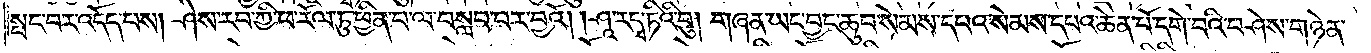སྤང་བར་འདོད་པས། ཤེས་རབ་ཀྱི་ཕ་རོལ་ཏུ་ཕྱིན་པ་ལ་བསླབ་པར་བྱའོ། །ཤཱ་ར་དྭ་ཏིའི་བུ། གཞན་ཡང་བྱང་ཆུབ་སེམས་དཔའ་སེམས་དཔའ་ཆེན་པོ་དགེ་བའི་བཤེས་གཉེན་
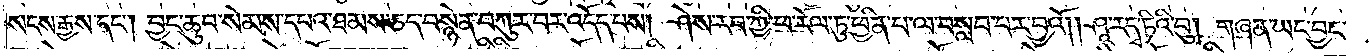སངས་རྒྱས་དང༌། བྱང་ཆུབ་སེམས་དཔའ་ཐམས་ཅད་བསྙེན་བཀུར་བར་འདོད་པས། ཤེས་རབ་ཀྱི་ཕ་རོལ་ཏུ་ཕྱིན་པ་ལ་བསླབ་པར་བྱའོ། །ཤཱ་ར་དྭ་ཏིའི་བུ། གཞན་ཡང་བྱང་
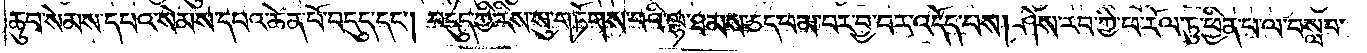ཆུབ་སེམས་དཔའ་སེམས་དཔའ་ཆེན་པོ་བདུད་དང༌། བདུད་ཀྱི་རིས་སུ་གཏོགས་པའི་ལྷ་ཐམས་ཅད་ཕམ་པར་བྱ་བར་འདོད་པས། ཤེས་རབ་ཀྱི་ཕ་རོལ་ཏུ་ཕྱིན་པ་ལ་བསླབ་
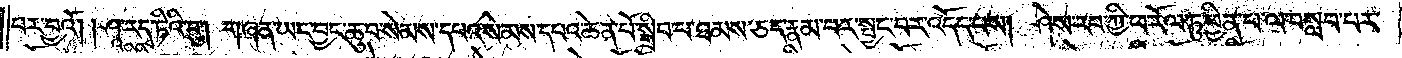པར་བྱའོ། །ཤཱ་ར་དྭ་ཏིའི་བུ། གཞན་ཡང་བྱང་ཆུབ་སེམས་དཔའ་སེམས་དཔའ་ཆེན་པོ་སྒྲིབ་པ་ཐམས་ཅད་རྣམ་པར་སྤྱང་བར་འདོད་པས། ཤེས་རབ་ཀྱི་ཕ་རོལ་ཏུ་ཕྱིན་པ་ལ་བསླབ་པར་
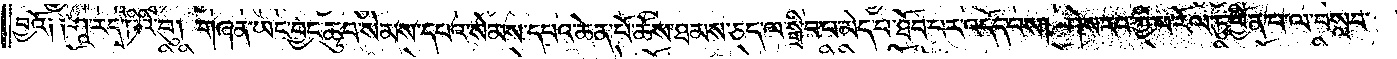བྱའོ༑ ༑ཤཱ་ར་དྭ་ཏིའི་བུ། གཞན་ཡང་བྱང་ཆུབ་སེམས་དཔའ་སེམས་དཔའ་ཆེན་པོ་ཆོས་ཐམས་ཅད་ལ་སྒྲིབ་པ་མེད་པ་ཐོབ་པར་འདོད་པས། ཤེས་རབ་ཀྱི་ཕ་རོལ་ཏུ་ཕྱིན་པ་ལ་བསླབ་
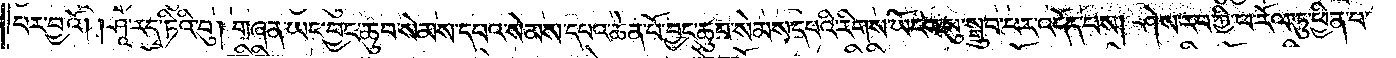པར་བྱའོ། །ཤཱ་ར་དྭ་ཏིའི་བུ། གཞན་ཡང་བྱང་ཆུབ་སེམས་དཔའ་སེམས་དཔའ་ཆེན་པོ་བྱང་ཆུབ་སེམས་དཔའི་རིགས་ཡོངས་སུ་སྒྲུབ་པར་འདོད་པས། ཤེས་རབ་ཀྱི་ཕ་རོལ་ཏུ་ཕྱིན་པ་
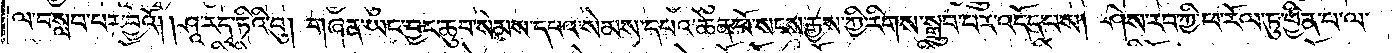ལ་བསླབ་པར་བྱའོ། །ཤཱ་ར་དྭ་ཏིའི་བུ། གཞན་ཡང་བྱང་ཆུབ་སེམས་དཔའ་སེམས་དཔའ་ཆེན་པོ་སངས་རྒྱས་ཀྱི་རིགས་སྒྲུབ་པར་འདོད་པས། ཤེས་རབ་ཀྱི་ཕ་རོལ་ཏུ་ཕྱིན་པ་ལ་
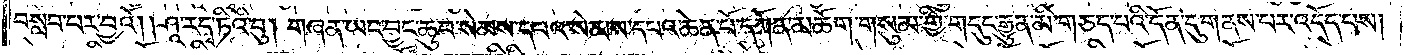བསླབ་པར་བྱའོ། །ཤཱ་ར་དྭ་ཏིའི་བུ། གཞན་ཡང་བྱང་ཆུབ་སེམས་དཔའ་སེམས་དཔའ་ཆེན་པོ་དཀོན་མཆོག་གསུམ་གྱི་གདུང་རྒྱུན་མི་གཅད་པའི་དོན་དུ་གནས་པར་འདོད་པས།
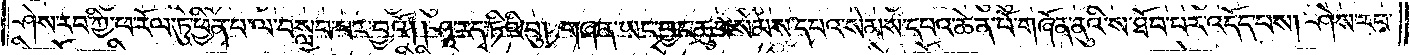ཤེས་རབ་ཀྱི་ཕ་རོལ་ཏུ་ཕྱིན་པ་ལ་བསླབ་པར་བྱའོ། །ཤཱ་ར་དྭ་ཏིའི་བུ། གཞན་ཡང་བྱང་ཆུབ་སེམས་དཔའ་སེམས་དཔའ་ཆེན་པོ་གཞོན་ནུའི་ས་ཐོབ་པར་འདོད་པས། ཤེས་རབ་
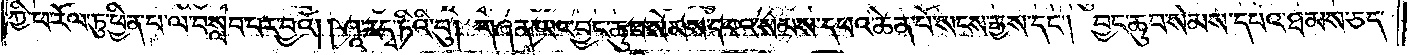ཀྱི་ཕ་རོལ་ཏུ་ཕྱིན་པ་ལ་བསླབ་པར་བྱའོ། །ཤཱ་ར་དྭ་ཏིའི་བུ། གཞན་ཡང་བྱང་ཆུབ་སེམས་དཔའ་སེམས་དཔའ་ཆེན་པོ་སངས་རྒྱས་དང༌། བྱང་ཆུབ་སེམས་དཔའ་ཐམས་ཅད་
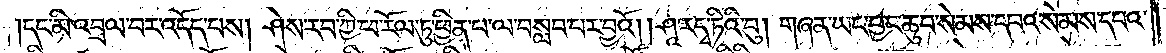དང་མི་འབྲལ་བར་འདོད་པས། ཤེས་རབ་ཀྱི་ཕ་རོལ་ཏུ་ཕྱིན་པ་ལ་བསླབ་པར་བྱའོ། །ཤཱ་ར་དྭ་ཏིའི་བུ། གཞན་ཡང་བྱང་ཆུབ་སེམས་དཔའ་སེམས་དཔའ་
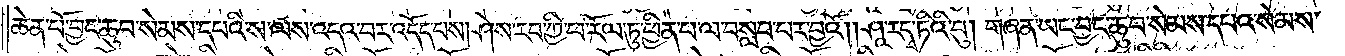ཆེན་པོ་བྱང་ཆུབ་སེམས་དཔའི་ས་ལས་འདའ་བར་འདོད་པས། ཤེས་རབ་ཀྱི་ཕ་རོལ་ཏུ་ཕྱིན་པ་ལ་བསླབ་པར་བྱའོ། །ཤཱ་ར་དྭ་ཏིའི་བུ། གཞན་ཡང་བྱང་ཆུབ་སེམས་དཔའ་སེམས་
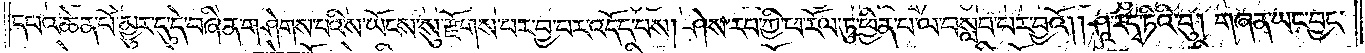དཔའ་ཆེན་པོ་མྱུར་དུ་དེ་བཞིན་གཤེགས་པའི་ས་ཡོངས་སུ་རྫོགས་པར་བྱ་བར་འདོད་པས། ཤེས་རབ་ཀྱི་ཕ་རོལ་ཏུ་ཕྱིན་པ་ལ་བསླབ་པར་བྱའོ། །ཤཱ་ར་དྭ་ཏིའི་བུ། གཞན་ཡང་བྱང་
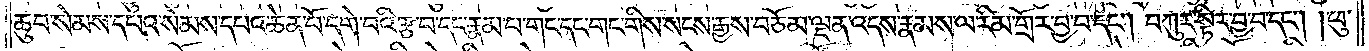ཆུབ་སེམས་དཔའ་སེམས་དཔའ་ཆེན་པོ་དགེ་བའི་རྩ་བ་དང་རྣམ་པ་གང་དང་གང་གིས་སངས་རྒྱས་བཅོམ་ལྡན་འདས་རྣམས་ལ་རིམ་གྲོར་བྱ་བ་དང༌། བཀུར་སྟིར་བྱ་བ་དང༌། །ཕུ་
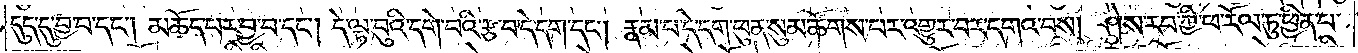དུད་དུ་བྱ་བ་དང༌། མཆོད་པར་བྱ་བ་དང༌། དེ་ལྟ་བུའི་དགེ་བའི་རྩ་བ་དེ་དག་དང༌། རྣམ་པ་དེ་དག་ཕུན་སུམ་ཚོགས་པར་འགྱུར་བར་དགའ་བས། ཤེས་རབ་ཀྱི་ཕ་རོལ་ཏུ་ཕྱིན་པ་
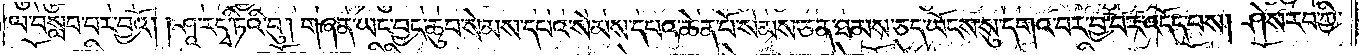ལ་བསླབ་པར་བྱའོ། །ཤཱ་ར་དྭ་ཏིའི་བུ། གཞན་ཡང་བྱང་ཆུབ་སེམས་དཔའ་སེམས་དཔའ་ཆེན་པོ་སེམས་ཅན་ཐམས་ཅད་ཡོངས་སུ་དགའ་བར་བྱ་བར་འདོད་པས། ཤེས་རབ་ཀྱི་
